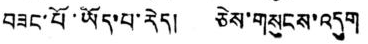བཟང་པོ་ཡོད་པ་རེད། ཅེས་གསུངས་འདུག
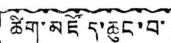ཚིག་མཛོད་ཆུང་བ་
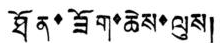ཐོན་ཟོག་ཆེས་ལུས།
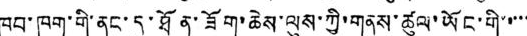ཁབ་ཁག་གི་ནང་དུ་ཐོན་ཟོག་ཆེས་ལུས་ཀྱི་གནས་ཚུལ་ཡོང་གི་་་་་
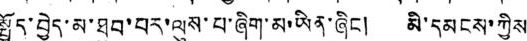སྤྱོད་བྱེད་མ་ཐུབ་བར་ལུས་པ་ཞིག་མ་ཡིན་ཞིང། མི་དམངས་ཀྱིས
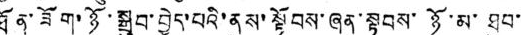ཐོན་ཟོག་ཉོ་སྒྲུབ་བྱེད་པའི་ནུས་སྟོབས་ཞན་སྟབས་ཉོ་མ་ཐུབ་
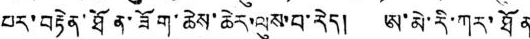པར་བརྟེན་ཐོན་ཟོག་ཆེས་ཆེར་ལུས་པ་རེད། ཨ་མེ་རི་ཀར་ཐོན
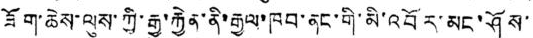ཟོག་ཆེས་ལུས་ཀྱི་རྒྱུ་རྐྱེན་ནི་རྒྱལ་ཁབ་ནང་གི་མི་འབོར་མང་ཤོས་
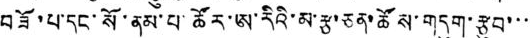བཟོ་པ་དང་སོ་ནམ་པ་ཚོར་ཨ་རིའི་མ་རྩ་ཅན་ཚོས་གདུག་རྩུབ་་་
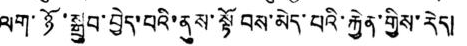ལག་ཉོ་སྒྲུབ་བྱེད་པའི་ནུས་སྟོབས་མེད་པའི་རྐྱེན་གྱིས་རེད།
